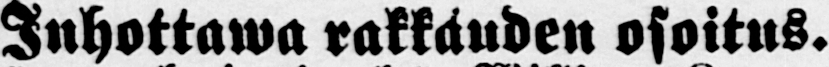Inhottawa rakkauden osoitus.
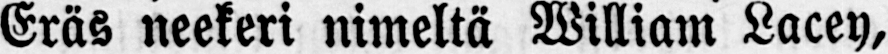Eräs neekeri nimeltä William Lacey,
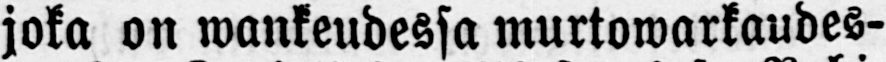joka on wankeudessa murtowarkaudes-
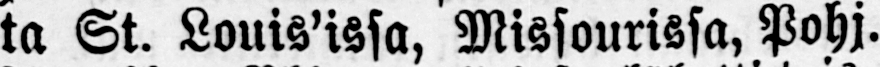ta St. Louisissa, Missourissa, Pohj.
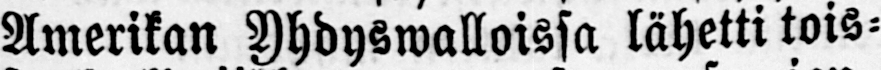Amerikan Yhdyswalloissa lähetti tois-
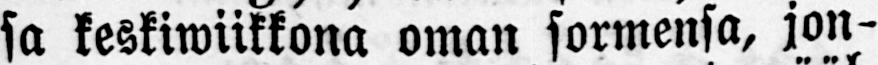sa keskiwiikkona oman sormensa, jon-
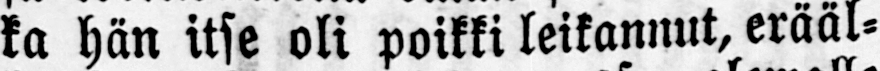ka hän itse oli poikki leikannut, erääl-
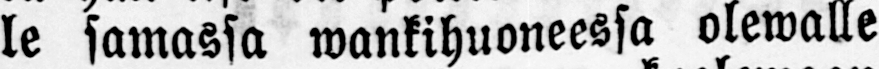le samassa wankihuoneessa olewalle
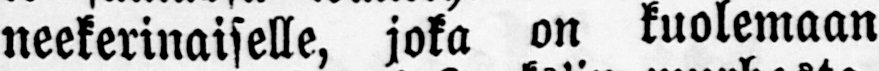neekerinaiselle, joka on kuolemaan
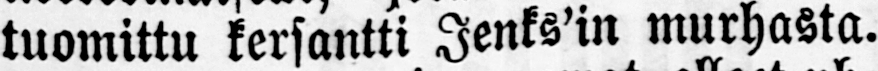tuomittu kersantti Jenks'in murhasta.
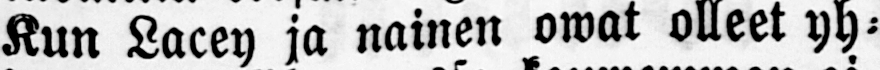Kun Lacey ja nainen owat olleet yh-
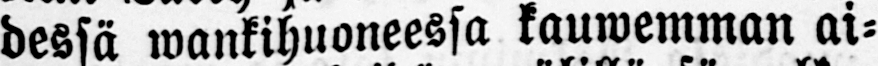dessä wankihuoneessa kauwemman ai-
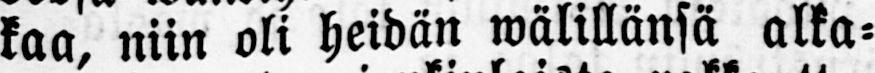kaa, niin oli heidän wälillänsä alka-
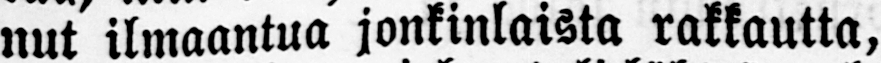nut ilmaantua jonkinlaista rakkautta,
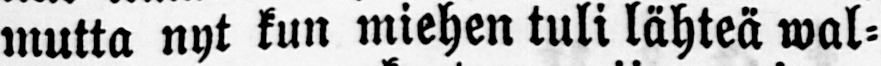mutta nyt kun miehen tuli lähteä wal-
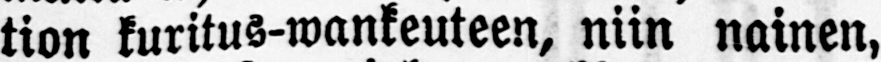tion kuritus-wankeuteen, niin nainen,
